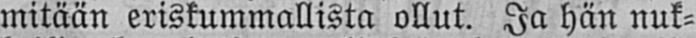mitään eriskummallista ollut. Ja hän nuk-
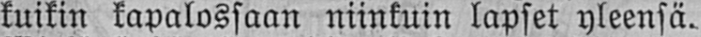kuikin kapalossaan niinkuin lapset yleensä.
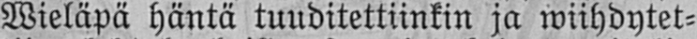Wieläpä häntä tuuditettiinkin ja wiihdytet-
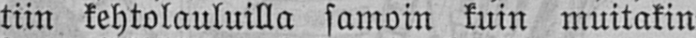tiin kehtolauluilla samoin kuin muitakin
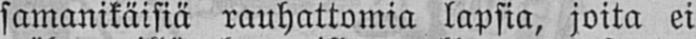samanikäisiä rauhattomia lapsia, joita ei
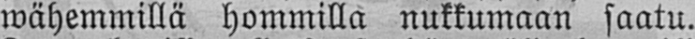wähemmillä hommilla nukkumaan saatu.
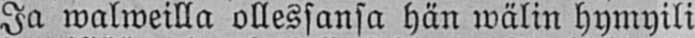Ja walweilla ollessansa hän wälin hymyili
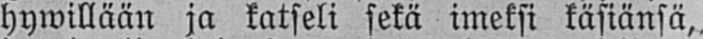hywillään ja katseli sekä imeksi käsiänsä,
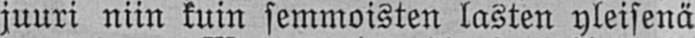juuri niin kuin semmoisten lasten yleisenä
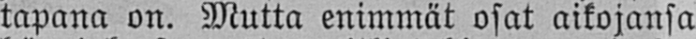tapana on. Mutta enimmät osat aikojansa
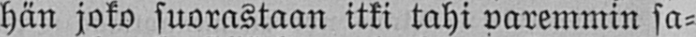hän joko suorastaan itki tahi paremmin sa-
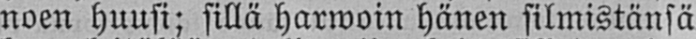noen huusi; sillä harwoin hänen silmistänsä
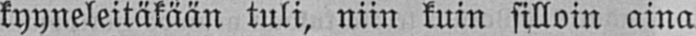kyyneleitäkään tuli, niin kuin silloin aina
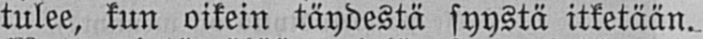tulee, kun oikein täydestä syystä itketään.
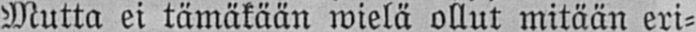Mutta ei tämäkään wielä ollut mitään eri-
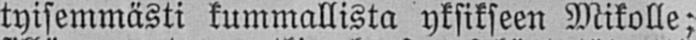tyisemmästi kummallista yksikseen Mikolle;
